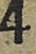4
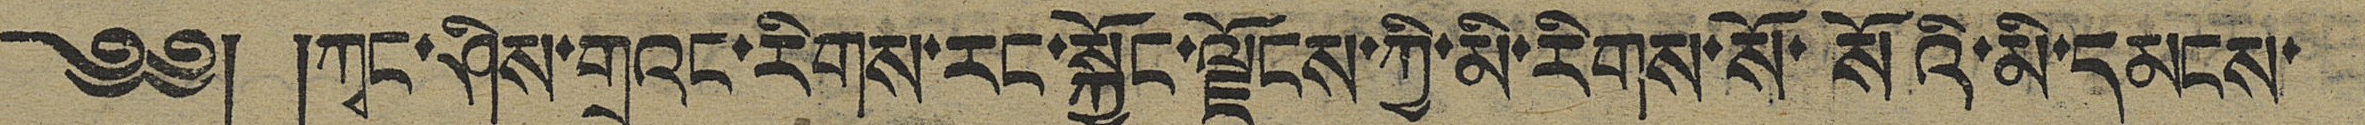༄༅། །ཀྭང་ཤིས་གྲུའང་རིགས་རང་སྐྱོང་ལྗོངས་ཀྱི་མི་རིགས་སོ་སོའི་མི་དམངས་
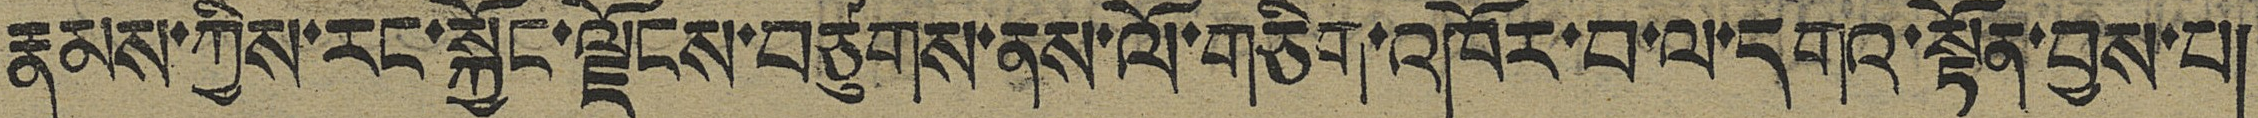རྣམས་ཀྱིས་རང་སྐྱོང་ལྗོངས་བཙུགས་ནས་ལོ་གཅིག་འཁོར་བ་ལ་དགའ་སྟོན་བྱས་པ།
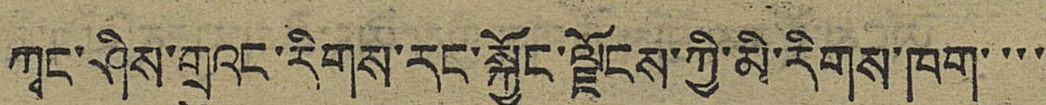ཀྭང་ཤིས་གྲུའང་རིགས་རང་སྐྱོང་ལྗོངས་ཀྱི་མི་རིགས་ཁག་་་་
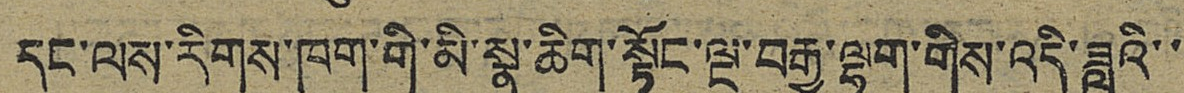དང་ལས་རིགས་ཁག་གི་མི་སྣ་ཆིག་སྟོང་ལྔ་བརྒྱ་ལྷག་གིས་འདི་ཟླའི་་
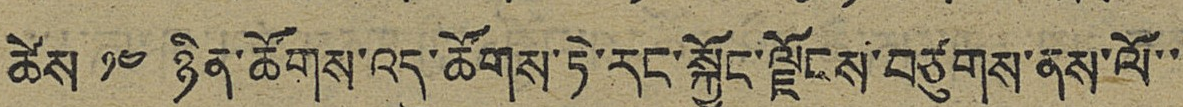ཚེས ༡༤ ཉིན་ཚོགས་འདུ་ཚོགས་ཏེ་རང་སྐྱོང་ལྗོངས་བཙུགས་ནས་ལོ་་
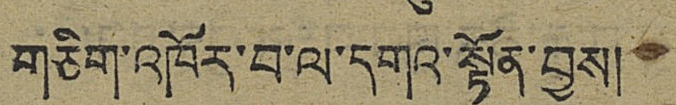གཅིག་འཁོར་བ་ལ་དགའ་སྟོན་བྱས།
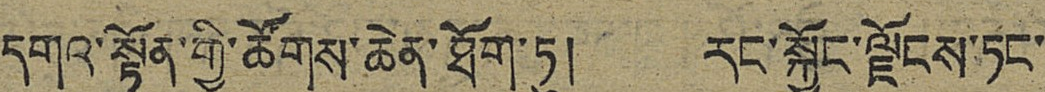དགའ་སྟོན་གྱི་ཚོགས་ཆེན་ཐོག་ཏུ། རང་སྐྱོང་ལྗོངས་ཏང་
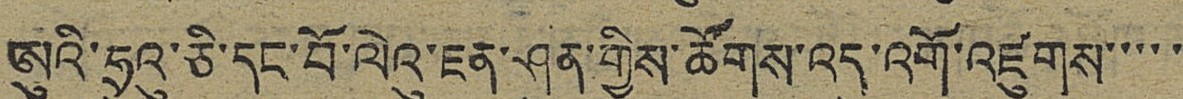ཨུའི་ཧྲུའུ་ཅི་དང་བོ་ལེའུ་ཇན་ཤུན་གྱིས་ཚོགས་འདུ་འགོ་འཛུགས་་་་་
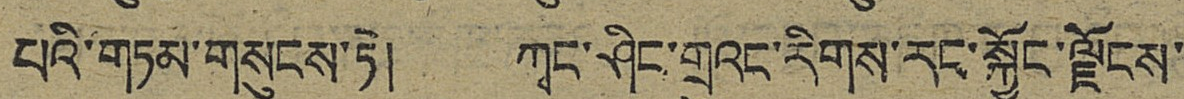པའི་གཏམ་གསུངས་ཏེ། ཀྭང་ཤིང་ཀྲུའང་རིགས་རང་སྐྱོང་ལྗོངས་
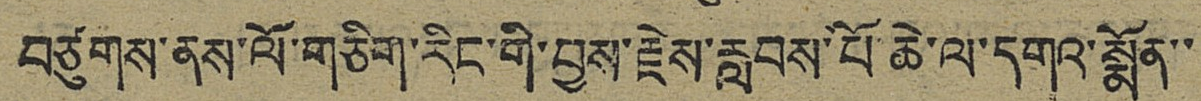བཙུགས་ནས་ལོ་གཅིག་རིང་གི་བྱས་རྗེས་རླབས་པོ་ཆེ་ལ་དགའ་སྨོན་་
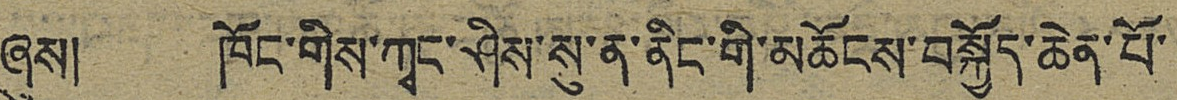ཞུས། ཁོང་གིས་ཀྭང་ཤིས་སུ་ན་ནིང་གི་མཆོངས་བསྐྱོད་ཆེན་པོ་
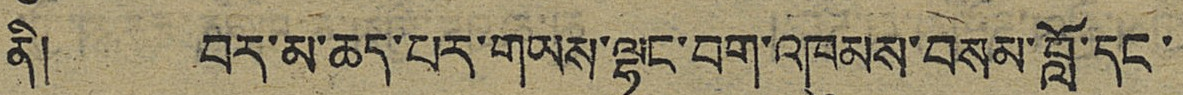ནི། བར་མ་ཆད་པར་གཡས་ལྷུང་བག་འཁུམས་བསམ་བློ་དང་
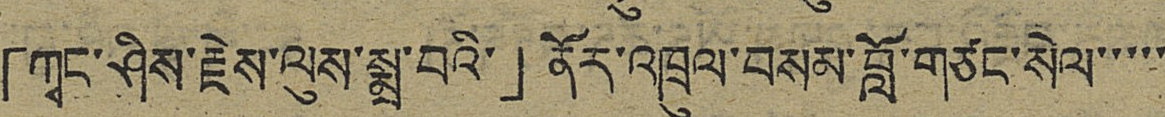「ཀྭང་ཤིས་རྗེས་ལུས་སྨྲ་བའི་」ནོར་འཁྲུལ་བསམ་བློ་གཙང་སེལ་་་་་
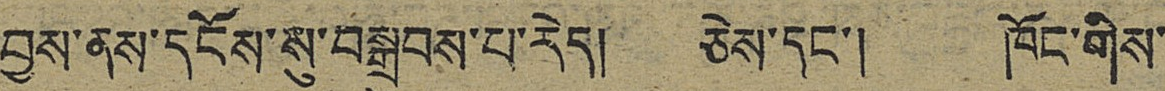བྱས་ནས་དངོས་སུ་བསྒྲུབས་པ་རེད། ཅེས་དང་། ཁོང་གིས་
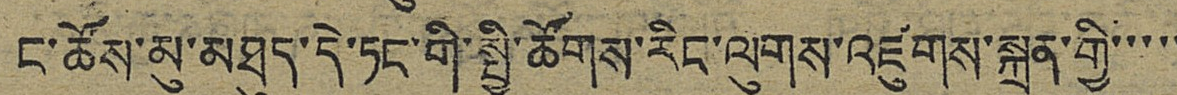ང་ཚོས་མུ་མཐུད་དེ་ཏང་གི་སྤྱི་ཚོགས་རིང་ལུགས་འཛུགས་སྐྲུན་གྱི་་་་་
